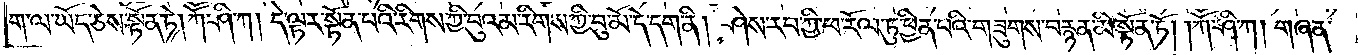ག་ལ་ཡོད་ཅེས་སྟོན་ཏེ། ཀཽ་ཤི་ཀ། དེ་ལྟར་སྟོན་པའི་རིགས་ཀྱི་བུའམ་རིགས་ཀྱི་བུ་མོ་དེ་དག་ནི། ཤེས་རབ་ཀྱི་ཕ་རོལ་ཏུ་ཕྱིན་པའི་གཟུགས་བརྙན་མི་སྟོན་ཏོ། །ཀཽ་ཤི་ཀ། གཞན་
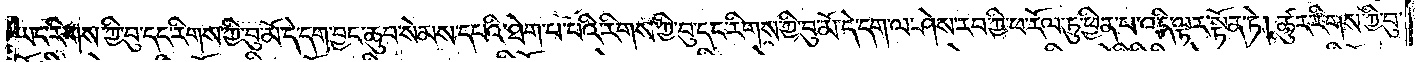ཡང་རིགས་ཀྱི་བུ་དང་རིགས་ཀྱི་བུ་མོ་དེ་དག་བྱང་ཆུབ་སེམས་དཔའི་ཐེག་པ་པའི་རིགས་ཀྱི་བུ་དང་རིགས་ཀྱི་བུ་མོ་དེ་དག་ལ་ཤེས་རབ་ཀྱི་ཕ་རོལ་ཏུ་ཕྱིན་པ་འདི་ལྟར་སྟོན་ཏེ། ཚུར་རིགས་ཀྱི་བུ་
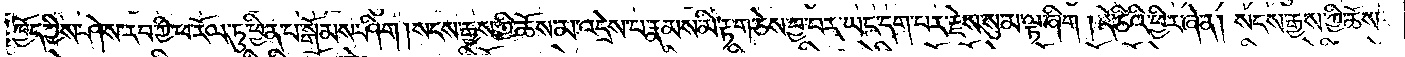ཁྱོད་ཀྱིས་ཤེས་རབ་ཀྱི་ཕ་རོལ་ཏུ་ཕྱིན་པ་སྒོམས་ཤིག །སངས་རྒྱས་ཀྱི་ཆོས་མ་འདྲེས་པ་རྣམས་མི་རྟག་ཅེས་བྱ་བར་ཡང་དག་པར་རྗེས་སུ་མ་ལྟ་ཞིག །དེ་ཅིའི་ཕྱིར་ཞེ་ན། སངས་རྒྱས་ཀྱི་ཆོས་
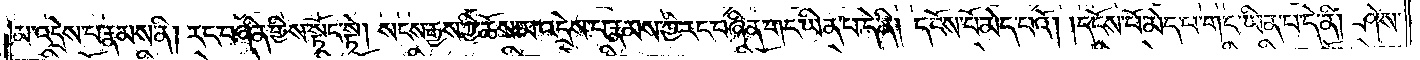མ་འདྲེས་པ་རྣམས་ནི། རང་བཞིན་གྱིས་སྟོང་སྟེ། སངས་རྒྱས་ཀྱི་ཆོས་མ་འདྲེས་པ་རྣམས་ཀྱི་རང་བཞིན་གང་ཡིན་པ་དེ་ནི། དངོས་པོ་མེད་པའོ། །དངོས་པོ་མེད་པ་གང་ཡིན་པ་དེ་ནི། ཤེས་
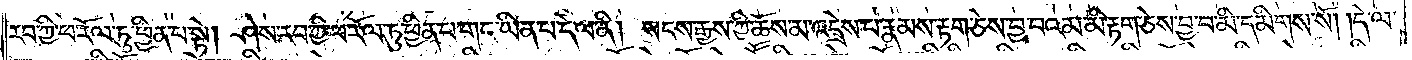རབ་ཀྱི་ཕ་རོལ་ཏུ་ཕྱིན་པ་སྟེ། ཤེས་རབ་ཀྱི་ཕ་རོལ་ཏུ་ཕྱིན་པ་གང་ཡིན་པ་དེ་ལ་ནི། སངས་རྒྱས་ཀྱི་ཆོས་མ་འདྲེས་པ་རྣམས་རྟག་ཅེས་བྱ་བའམ་མི་རྟག་ཅེས་བྱ་བ་མི་དམིགས་སོ། །དེ་ལ་
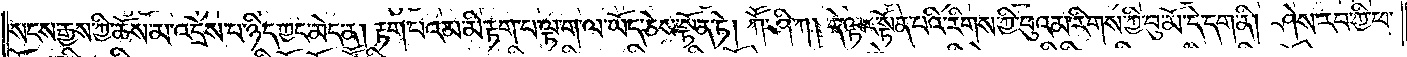སངས་རྒྱས་ཀྱི་ཆོས་མ་འདྲེས་པ་ཉིད་ཀྱང་མེད་ན། རྟག་པའམ་མི་རྟག་པ་ལྟ་ག་ལ་ཡོད་ཅེས་སྟོན་ཏེ། ཀཽ་ཤི་ཀ། དེ་ལྟར་སྟོན་པའི་རིགས་ཀྱི་བུའམ་རིགས་ཀྱི་བུ་མོ་དེ་དག་ནི། ཤེས་རབ་ཀྱི་ཕ་
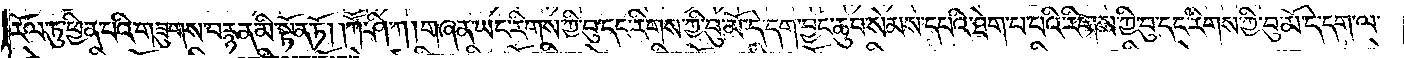རོལ་ཏུ་ཕྱིན་པའི་གཟུགས་བརྙན་མི་སྟོན་ཏོ། །ཀཽ་ཤི་ཀ། གཞན་ཡང་རིགས་ཀྱི་བུ་དང་རིགས་ཀྱི་བུ་མོ་དེ་དག་བྱང་ཆུབ་སེམས་དཔའི་ཐེག་པ་པའི་རིགས་ཀྱི་བུ་དང་རིགས་ཀྱི་བུ་མོ་དེ་དག་ལ་
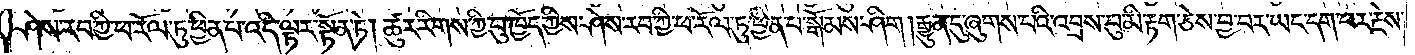ཤེས་རབ་ཀྱི་ཕ་རོལ་ཏུ་ཕྱིན་པ་འདི་ལྟར་སྟོན་ཏེ། ཚུར་རིགས་ཀྱི་བུ་ཁྱོད་ཀྱིས་ཤེས་རབ་ཀྱི་ཕ་རོལ་ཏུ་ཕྱིན་པ་སྒོམས་ཤིག །རྒྱུན་དུ་ཞུགས་བའི་འབྲས་བུ་མི་རྟག་ཅས་བྱ་བར་ཡང་དག་པར་རྗེས་
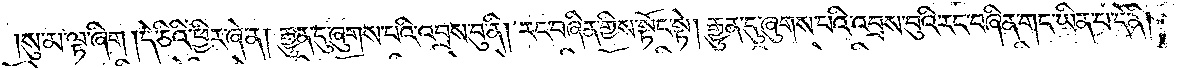སུ་མ་ལྟ་ཞིག །དེ་ཅིའི་ཕྱིར་ཞེ་ན། རྒྱུན་དུ་ཞུགས་པའི་འབྲས་བུ་ནི། རང་བཞིན་གྱིས་སྟོང་སྟེ། རྒྱུན་དུ་ཞུགས་པའི་འབྲས་བུའི་རང་བཞིན་གང་ཡིན་པ་དེ་ནི།
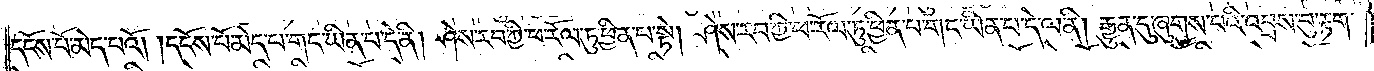དངོས་པོ་མེད་པའོ། །དངོས་པོ་མེད་པ་གང་ཡིན་པ་དེ་ནི། ཤེས་རབ་ཀྱི་ཕ་རོལ་ཏུ་ཕྱིན་པ་སྟེ། ཤེས་རབ་ཀྱི་ཕ་རོལ་ཏུ་ཕྱིན་པ་གང་ཡིན་པ་དེ་ལ་ནི། རྒྱུན་དུ་ཞུགས་པའི་འབྲས་བུ་རྟག་
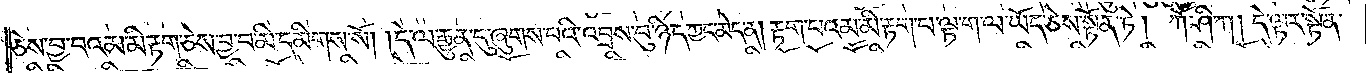ཅེས་བྱ་བའམ་མི་རྟག་ཅེས་བྱ་བ་མི་དམིགས་སོ། །དེ་ལ་རྒྱུན་དུ་ཞུགས་པའི་འབྲས་བུ་ཉིད་ཀྱང་མེད་ན། རྟག་པའམ་མི་རྟག་པ་ལྟ་ག་ལ་ཡོད་ཅེས་སྟོན་ཏེ། ཀཽ་ཤི་ཀ། དེ་ལྟར་སྟོན་
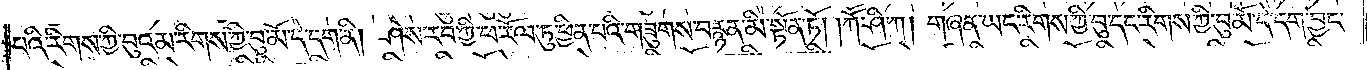པའི་རིགས་ཀྱི་བུའམ་རིགས་ཀྱི་བུ་མོ་དེ་དག་ནི། ཤེས་རབ་ཀྱི་ཕ་རོལ་ཏུ་ཕྱིན་པའི་གཟུགས་བརྙན་མི་སྟོན་ཏོ། །ཀཽ་ཤི་ཀ། གཞན་ཡང་རིགས་ཀྱི་བུ་དང་རིགས་ཀྱི་བུ་མོ་དེ་དག་བྱང་
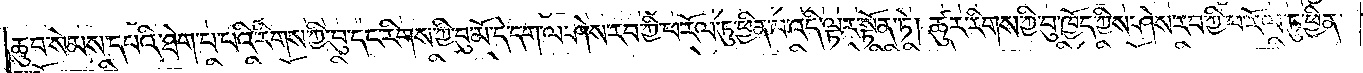ཆུབ་སེམས་དཔའི་ཐེག་པ་པའི་རིགས་ཀྱི་བུ་དང་རིགས་ཀྱི་བུ་མོ་དེ་དག་ལ་ཤེས་རབ་ཀྱི་ཕ་རོལ་ཏུ་ཕྱིན་པ་འདི་ལྟར་སྟོན་ཏེ། ཚུར་རིགས་ཀྱི་བུ་ཁྱོད་ཀྱིས་ཤེས་རབ་ཀྱི་ཕ་རོལ་ཏུ་ཕྱིན་
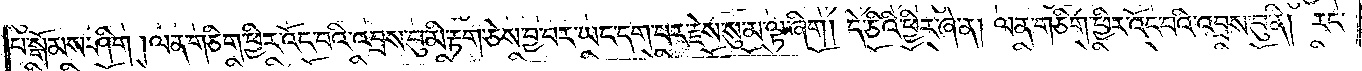པ་སྒོམས་ཤིག །ལན་གཅིག་ཕྱིར་འོང་བའི་འབྲས་བུ་མི་རྟག་ཅེས་བྱ་བར་ཡང་དག་པར་རྗེས་སུ་མ་ལྟ་ཞིག །དེ་ཅིའི་ཕྱིར་ཞེ་ན། ལན་ཅིག་ཕྱིར་འོང་བའི་འབྲས་བུ་ནི། རང་
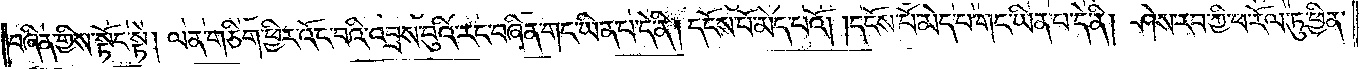བཞིན་གྱིས་སྟོང་སྟེ། ལན་གཅིག་ཕྱིར་འོང་བའི་འབྲས་བུའི་རང་བཞིན་གང་ཡིན་པ་དེ་ནི། དངོས་པོ་མེད་པའོ། །དངོས་པོ་མེད་པ་གང་ཡིན་པ་དེ་ནི། ཤེས་རབ་ཀྱི་ཕ་རོལ་ཏུ་ཕྱིན་
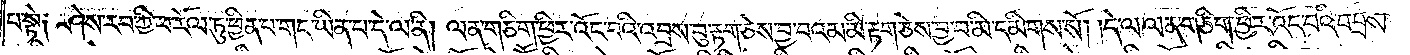པ་སྟེ༑ ཤེས་རབ་ཀྱི་ཕ་རོལ་ཏུ་ཕྱིན་པ་གང་ཡིན་པ་དེ་ལ་ནི། ལན་གཅིག་ཕྱིར་འོང་བའི་འབྲས་བུ་རྟག་ཅེས་བྱ་བའམ་མི་རྟག་ཅེས་བྱ་བ་མི་དམིགས་སོ། །དེ་ལ་ལན་གཅིག་ཕྱིར་འོང་བའི་འབྲས་
